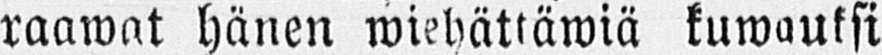raawat hänen wiehättäwiä kuwauksi-
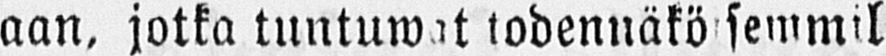aan, jotka tuntuwat todennäköisemmil
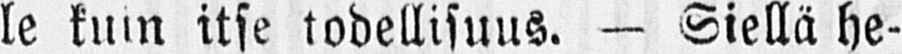le kuin itse todellisuus. — Siellä he-
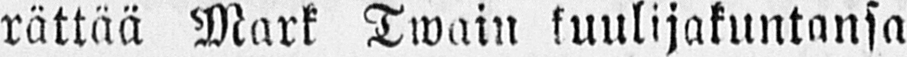rättää Mark Twain kuulijakuntansa
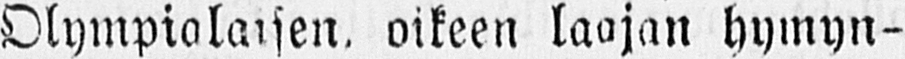Olympialaisen, oikeen laajan hymyn-
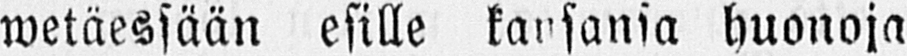wetäessään esille kansansa huonoja
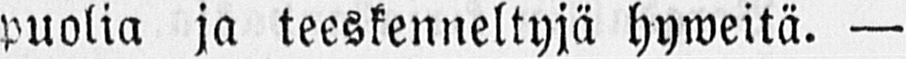puolia ja teeskenneltyjä hyweitä. —
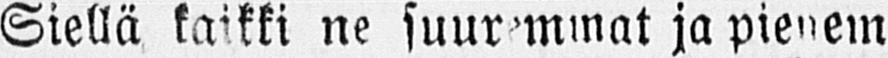Siellä kaikki ne suuremmat ja pienem-
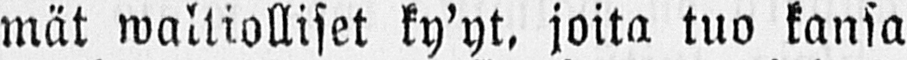mät waltiolliset ky'yt, joita tuo kansa
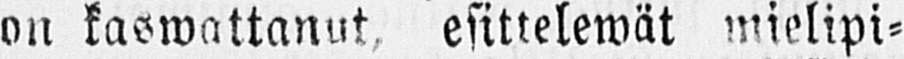on kaswattanut, esittelewät mielipi-
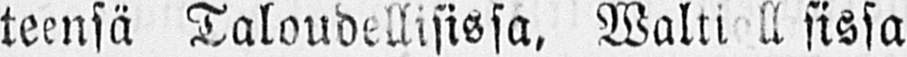teensä Taloudellisissa, Waltiollisissa
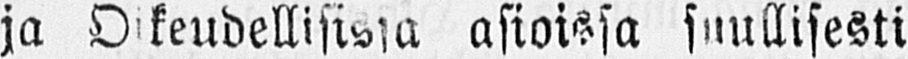ja Oikeudellisissa asioissa suullisesti
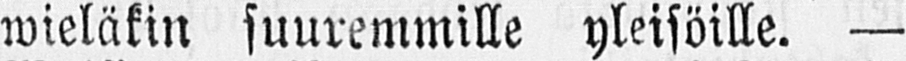wieläkin suuremmille yleisöille. —
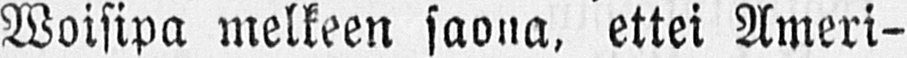Woisipa melkeen saona, ettei Ameri-
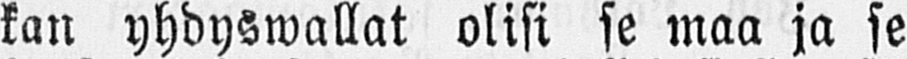kan yhdyswallat olisi se maa ja se
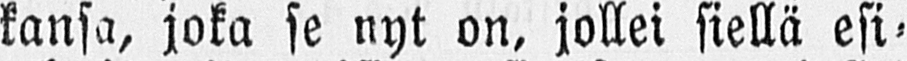kansa, joka se nyt on, jollei siellä esi-
